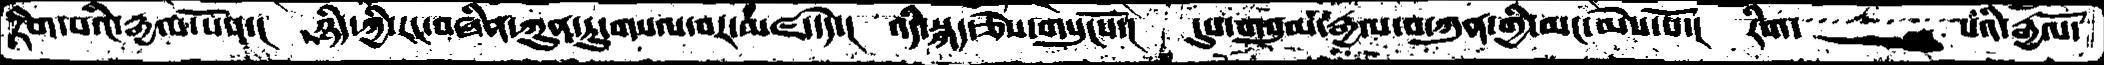རིག་པའི་རྒྱལ་པོས་། ཉིད་ཀྱི་རང་བཞིན་ཀུན་ཏུ་གསལ་བར་མཛད་དེ་།  འདི་སྐད་ཅེས་གསུངསོ་། དུས་གསུམ་རྒྱལ་བ་ཀུན་གྱི་མང་མེས་པོ་།  རིག་་་་་་་་་་་་པའི་རྒྱལོ་
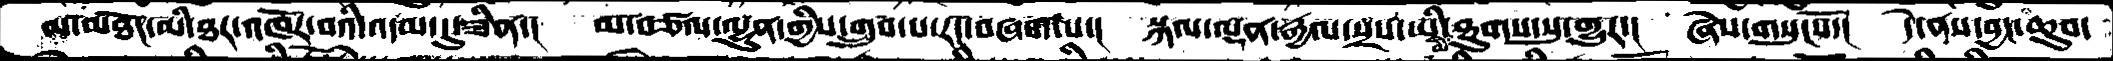མ་མཐོང་མི་ཐར་འཁོར་བའི་འདམ་དུ་ཟིན་། མ་བརྩལ་ལྷུན་གྱིས་གྲུབ་པ་རང་བཞག་པ་། སྐལ་ལྡན་རྒྱལ་སྲས་ཡི་མི་ཐུགས་སུ་གྱུར་།  ཞེས་གསུངསོ་། དེ་ནས་བྱང་ཆུབ་
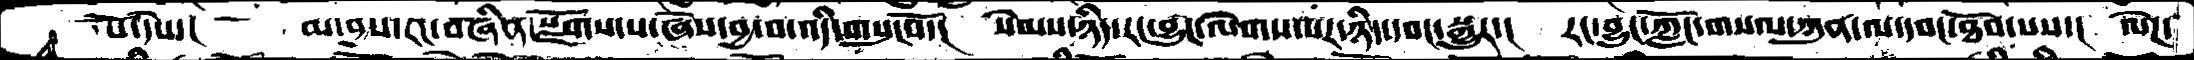པོ་དེས་།   མ་བྱས་རང་བཞིན་སྫོགས་པ་ཞེས་བྱ་བ་འདི་གསུངསོ་། སེམས་ཉིད་རང་བྱུང་ལེགས་པར་ཉིད་དབང་སྒྱུར་། རང་བྱུང་ཀློང་གསལ་ཀུན་ལ་དབང་ཐོབ་པས་།  ལེཌ་
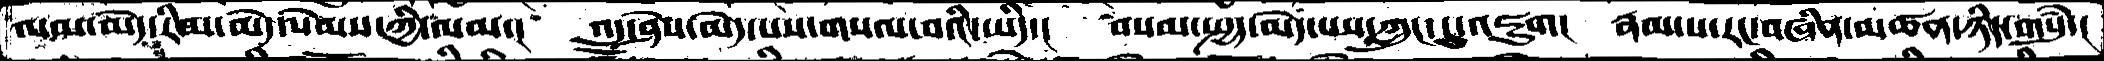ལམ་མེད་རིམ་མེད་སེམས་ཀྱི་ལམ་། འདུ་ཤེས་མེད་པས་གསལ་བའི་ཡིད་། བསམ་སྤྱད་མེད་པས་ཀླུང་དུ་འཇུག། རྣམ་པ་རང་བཞིན་མཚན་ཉིད་གསུཾ་།
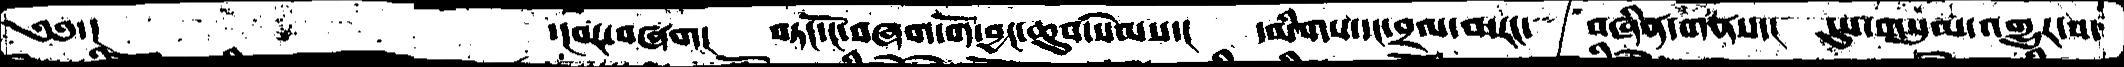༄༅་།        ་།བར་བཞག།  བཏང་ངོ་བཞག་གོ་བྱང་ཆུབ་སེམས་།  དམིགས་དང་བྲལ་བ་རང་  བཞིན་གནས་། དུས་གསུམ་འགྱུར་བ་
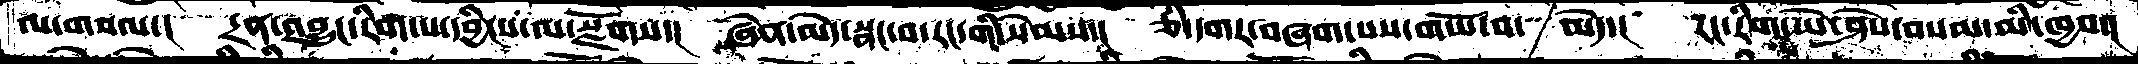ལ་གསལ་།  དྲན་འབྱུང་རིག་པ་དབྱིངས་ལ་སྫོགས་། ཞེན་མེད་སྣང་བ་རང་གི་སེམས་།  ཅི་དགར་བཞག་པས་གཡོ་བ་མེད་། རང་རིག་ཡེ་ཤེས་བསམ་མི་ཁྱབ་།
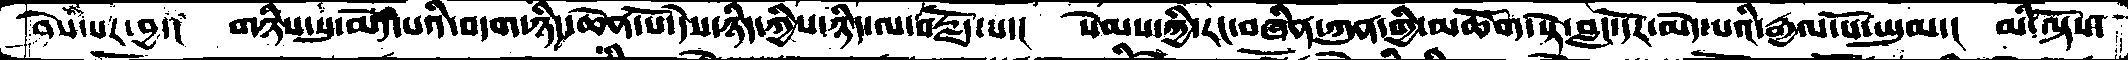ཤེས་པར་བྱ་།  གཉིས་སུ་མེད་པའི་བདག་ཉིད་ཆེན་པོ་དེས་ཉིད་ཀྱིས་ཉིད་ལ་བརྗོད་པ་། སེམས་ཀྱི་རང་བཞིན་ཀུན་གྱི་མཆོག་སྟེ་བླང་དོར་མེད་པའི་རྒྱལ་པོ་ཡུམ་།  མི་ལྟོས་
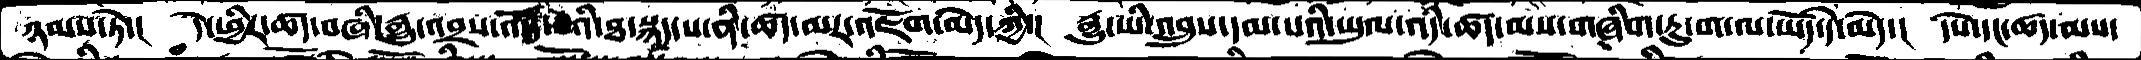ཉམས་ཏེ་།  དེ་ཕྱིར་ཚད་བཞི་རྒྱུ་འབྲས་འདོད་པའི་ཐ་སྙད་པ་ནི་ཚད་མར་འཇོག་མེད་ཀྱི་།  རྒྱུ་ཡི་འབྲུས་དམ་པའི་ཡུལ་འདི་ཚད་མས་གཞིག་ཏུ་ག་ལ་ཡོད་དེ་མེད་།  དཔེ་དང་ཚད་མས་
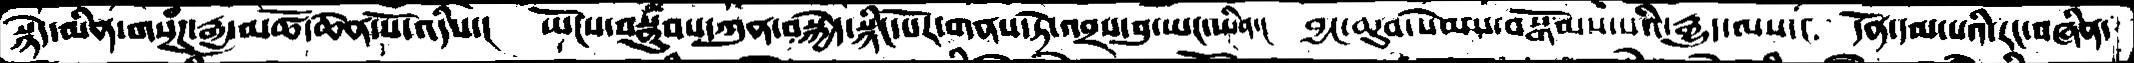སྙེད་མིན་གསྔཾཌ་རྒྱ་མཚོ་ཆེན་པོ་འདིས་།  ཡོངས་བསྣུབས་ཀུན་བསྐྱེད་སྙིང་པོར་གནས་ཏེ་འབྲས་བུ་ཡང་ཡིན་། བྱང་ཆུབ་སེམས་བསྒོམས་པའི་རྒྱུད་ལས་། དོན་དམ་པའི་རང་བཞིན་
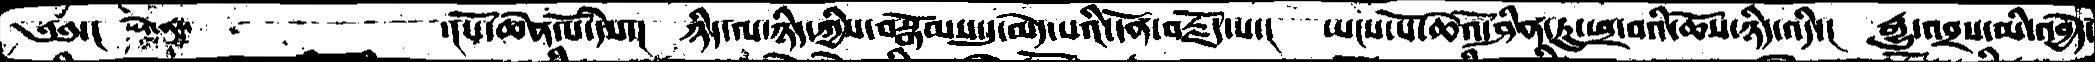༄༅་།  ཡེ་ནས་།       ་ངཔོ་ཆེན་པོ་དེས་།  ཉིད་ལ་ཉིད་ཀྱིས་བསྒོམས་དུ་མེད་པའི་དོན་བརྗོད་པ་།  ཡངས་པོ་ཆེའོ་ཤིན་ཏུ་ཕྲ་བའི་ཆོས་ཉིད་འདི་།  རྒྱུ་འབྲས་མི་འབྱེད་
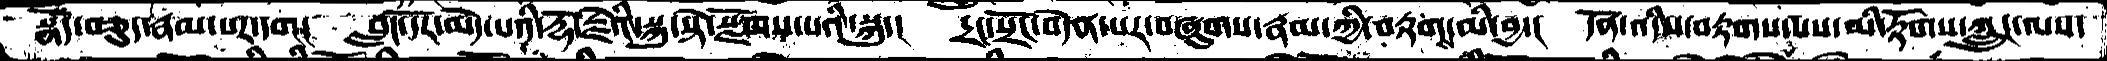སྣོད་བཅུ་རྣམ་པར་དག།  བླང་དོར་མེད་པའི་རྡོ་རྗེའི་སྐུ་སྟེ་སྫོགས་པའི་སྐུ་།  དྲང་སྲོང་བདེན་པར་བཞུགས་རྣམ་ཀྱི་བརྟགས་མི་བྱ་། དོན་འདིས་བརྟགས་པས་མི་རྟོགས་ཀླུང་ལས་
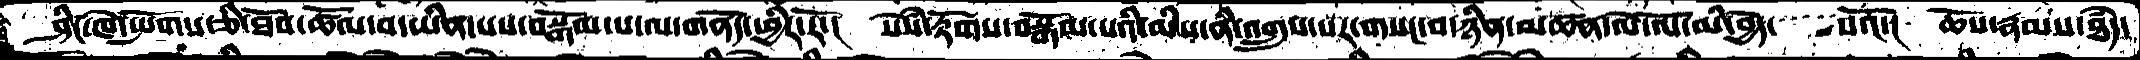ཤིང་ཁེ་སྤོགས་ཅི་ཐོབ་ཚོལ་བ་ཡིན་པས་བསྒོམ་པ་ལ་གནོད་ཕྱིར་རོ་།  སེསཾ་རྟོགས་བསྒོམ་པའི་མིས་ནི་འགྲུས་པར་གསང་བ་ཉིན་མཚན་ལེ་ལོ་མི་བྱེད་་་་་་པའོ་།  ཆོས་རྣམས་ཐཾད་
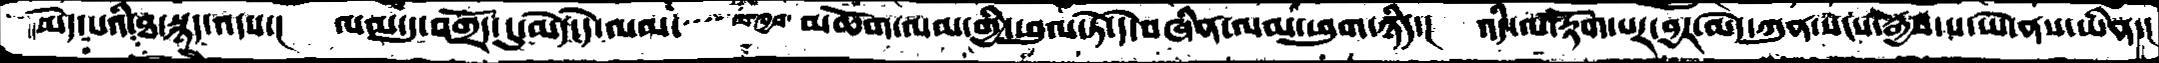མེད་པའི་ཐ་སྙད་འདས་།  ལམ་དུ་བགྲོད་དུ་མེད་དེ་ལམ་་་ལ་ཁྱབ་ མཆོག་ལམ་གྱི་ཕུལ་ཏེ་དེ་བཞིན་ལམ་ཕུག་ཉིད་།  འདི་ལ་རྟོག་པར་བྱར་མེད་ཀུན་སངས་རྒྱས་ས་ཡེ་ནས་ཡིན་།
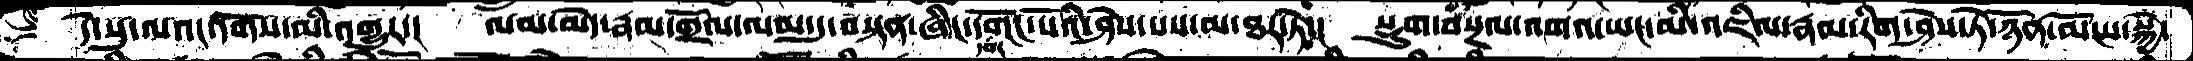དེ་སུ་ལའང་དགོས་མི་འགྱུར་།  ལམ་མེད་རྣམ་གྲོལ་ལམ་དུ་བསྟན་ཞིང་དགོང་པོའི་ཤེས་པས་མ་ཐར་ཏེ་། སྡུག་བསྔལ་འགའ་ཡང་མི་འཇིལ་རྣམ་རིག་ཤེས་ཏེ་ཉོན་མོངས་སྐྱེ་
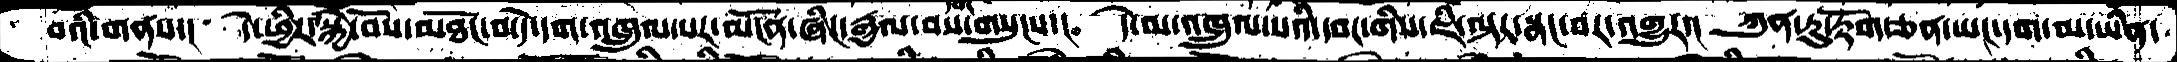བའི་གནས་། དེ་ཕྱིར་སྐྱེ་བོས་མཐོང་བ་དེ་དག་འཁྲུལ་པར་མངོན་ཞིང་རྒྱལ་བས་གསུངས་།  དེ་མ་འཁྲུལ་པའི་དབང་གིས་ཇི་ལྟར་སྣང་བར་འགྱུར་།  ཀུན་ཏུ་རྟོག་ཅན་ཡང་དག་མ་ཡིན་
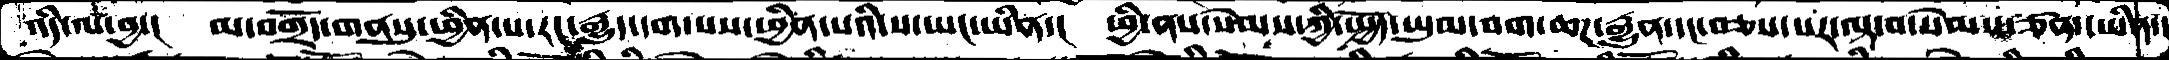འདི་ལ་བྱ་།  མ་བགྲོད་གནསུ་ཕྱིན་པ་རང་རྒྱུད་དག་པས་ཕྱིན་པའི་ས་ཡང་ཡིན་། ཕྱི་ནས་སེམས་ཀྱི་སྤྱོད་ཡུལ་བག་ཆཌ་རྒྱུན་དང་བཅས་པར་ལྟ་བ་སེམས་ཅན་ཡིན་།
